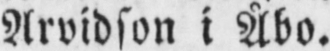Arvidson i Åbo.
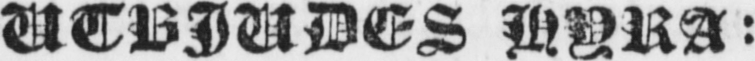AFBJUDES HYRA:
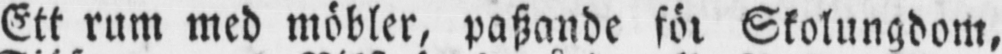Ett rum med möbler, paszande för Skolungdom,
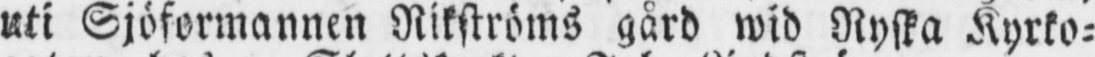uti Sjöformannen Rikströms gård wid Ryska Kyrko-
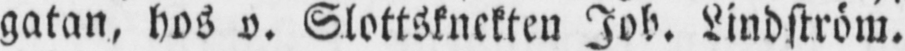gatan, hos o. Slottsknekten Joh. Lindström.
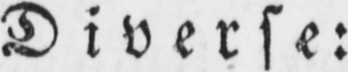Diverse:
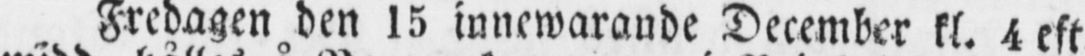Fredagen den 15 innewarande December kl. 4 eft.
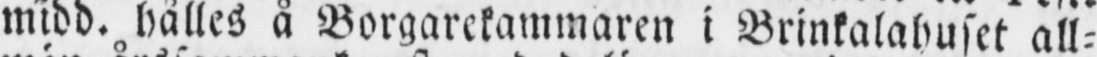midd. hålles å Borgarekammaren i Brinkalahuset all-
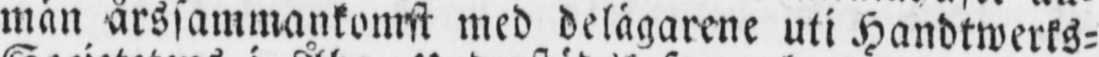män årssammankomst med delägarene uti handtwerks-
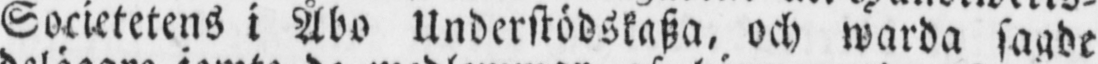Societetens i Åbo Understödskasza, och warda sagde
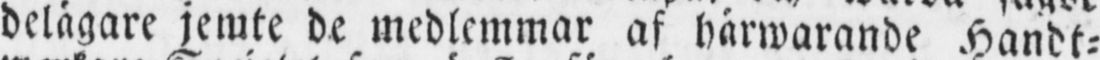delägare jemte de medlemmar af härwarande Handt-
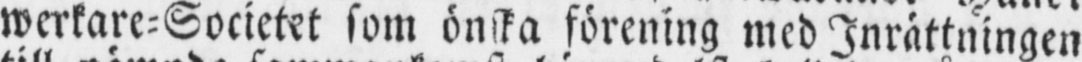werkare-Societet som önska förening med Inrättningen,
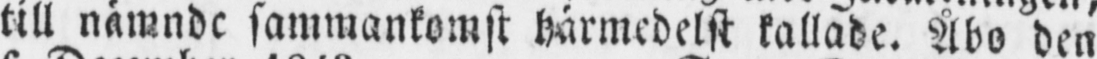till nämnde sammankomst härmedelst kallade. Åbo den
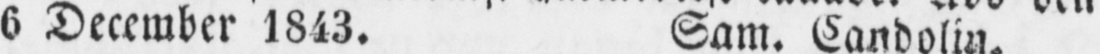6 December 1843. Sam. Candolin.
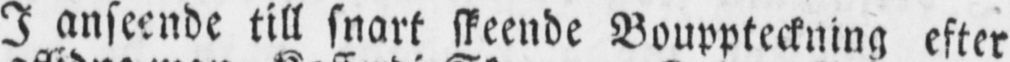I anseende till snart skeende Bouppteckning efter
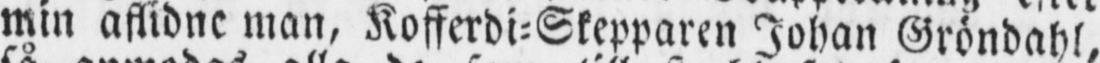min aflidne man, Kofferdi-Skepparen Johan Gröndahl,
